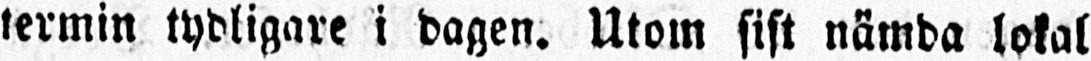termin tydligare i dagen. Utom sist nämda lokal
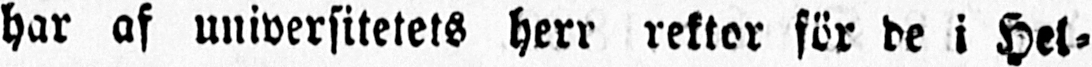har af universitetets herr rektor för de i Hel-
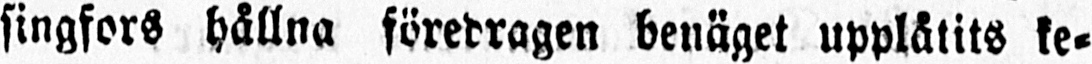singfors hållna föredragen benäget upplåtits ke-
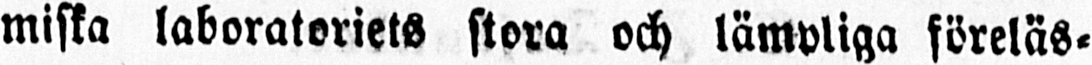miska laboratoriets stora och lämpliga föreläs-
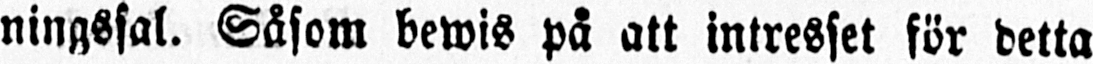ningssal. Såsom bewis på att intresset för detta
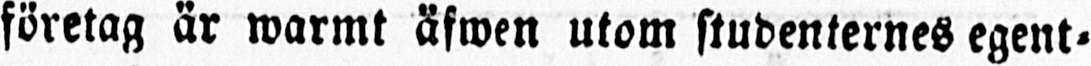företag är warmt äfwen utom studenternes egent-
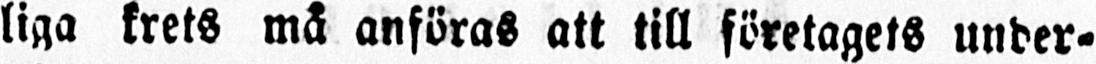liga krets må anföras att till företagets under-
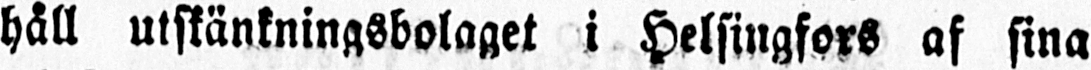håll utskänkningsbolaget i Helsingfors af sina
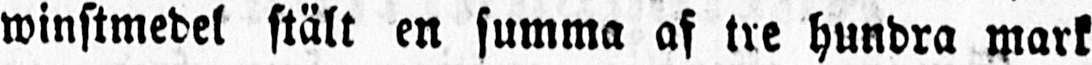winstmedel stält en summa af tre hundra mark
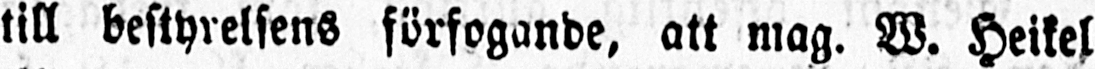till bestyrelsens förfogande, att mag. W. Heikel
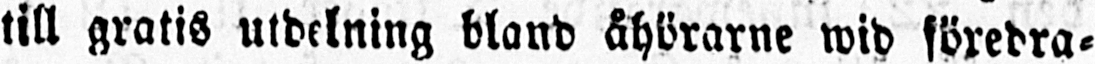till gratis utdelning bland åhörarne wid föredra-
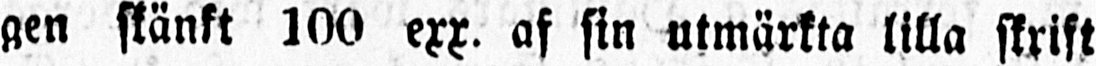gen skänkt 100 exx. af sin utmärkta lilla skrift
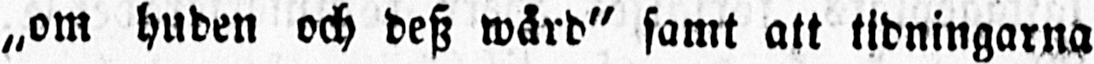„om huden och desz wård" samt att tidningarna
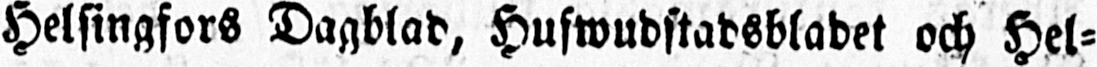Helsingfors Dagblad, Hufwudstadsblabet och Hel-
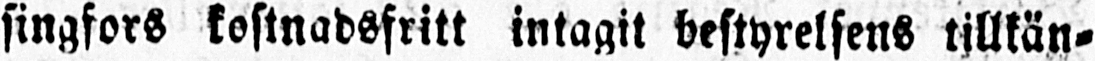singfors kostnadsfritt intagit bestyrelsens tillkän-
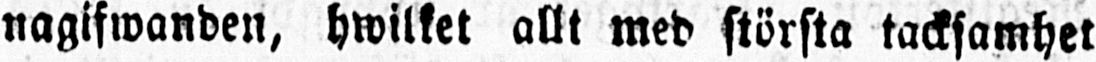nagifwanden, hwilket allt med största tacksamhet
